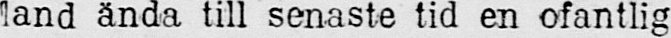land ända till senaste tid en ofantlig
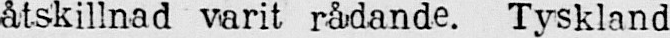åtskillnad varit rådande. Tyskland
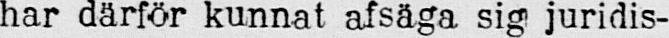har därför kunnat afsäga sig juridis-
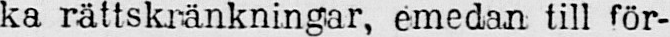ka rättskränkningar, emedan till för-
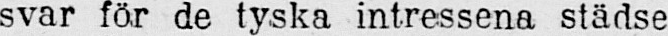svar för de tyska intressena städse
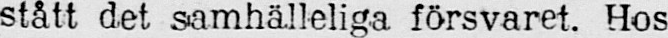stått det samhälleliga försvaret. Hos
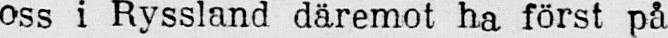oss i Ryssland däremot ha först på
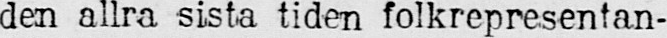den allra sista tiden folkrepresentan-
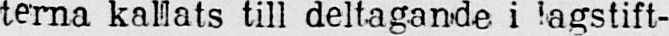terna kallats till deltagande i lagstift-
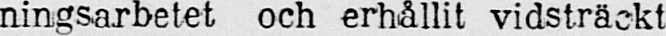ningsarbetet och erhållit vidsträckt
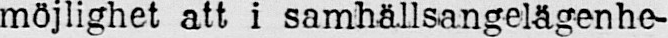möjlighet att i samhällsangelägenhe-
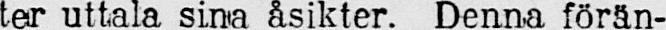ter uttala sina åsikter. Denna förän-
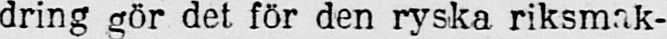dring gör det för den ryska riksmak-
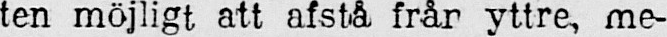ten möjligt att afstå frår yttre, me-
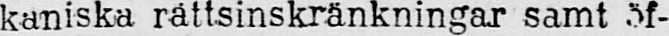kaniska råttsinskränkningar samt öf-
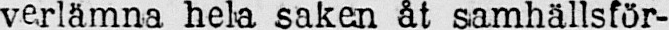verlämna hela saken åt samhällsför-
